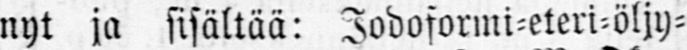nyt ja sisältää: Jodoformi-eteri-öljy-
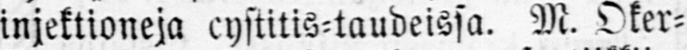injektioneja cystitis-taudeissa. M. Oker-
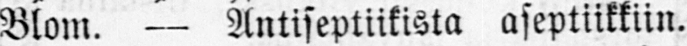Blom. — Antiseptiikista aseptiikkiin.
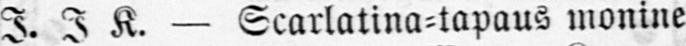J. J. K. — Scarlatina-tapaus monine
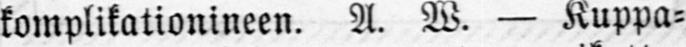komplikationineen. A. W. — Kuppa-
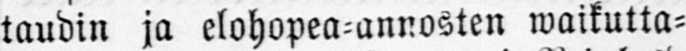taudin ja elohopea-annosten waikutta-
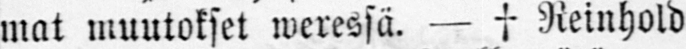mat muutokset weressä. — † Reinhold
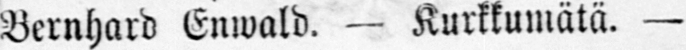Bernhard Enwald. — Kurkkumätä. —
